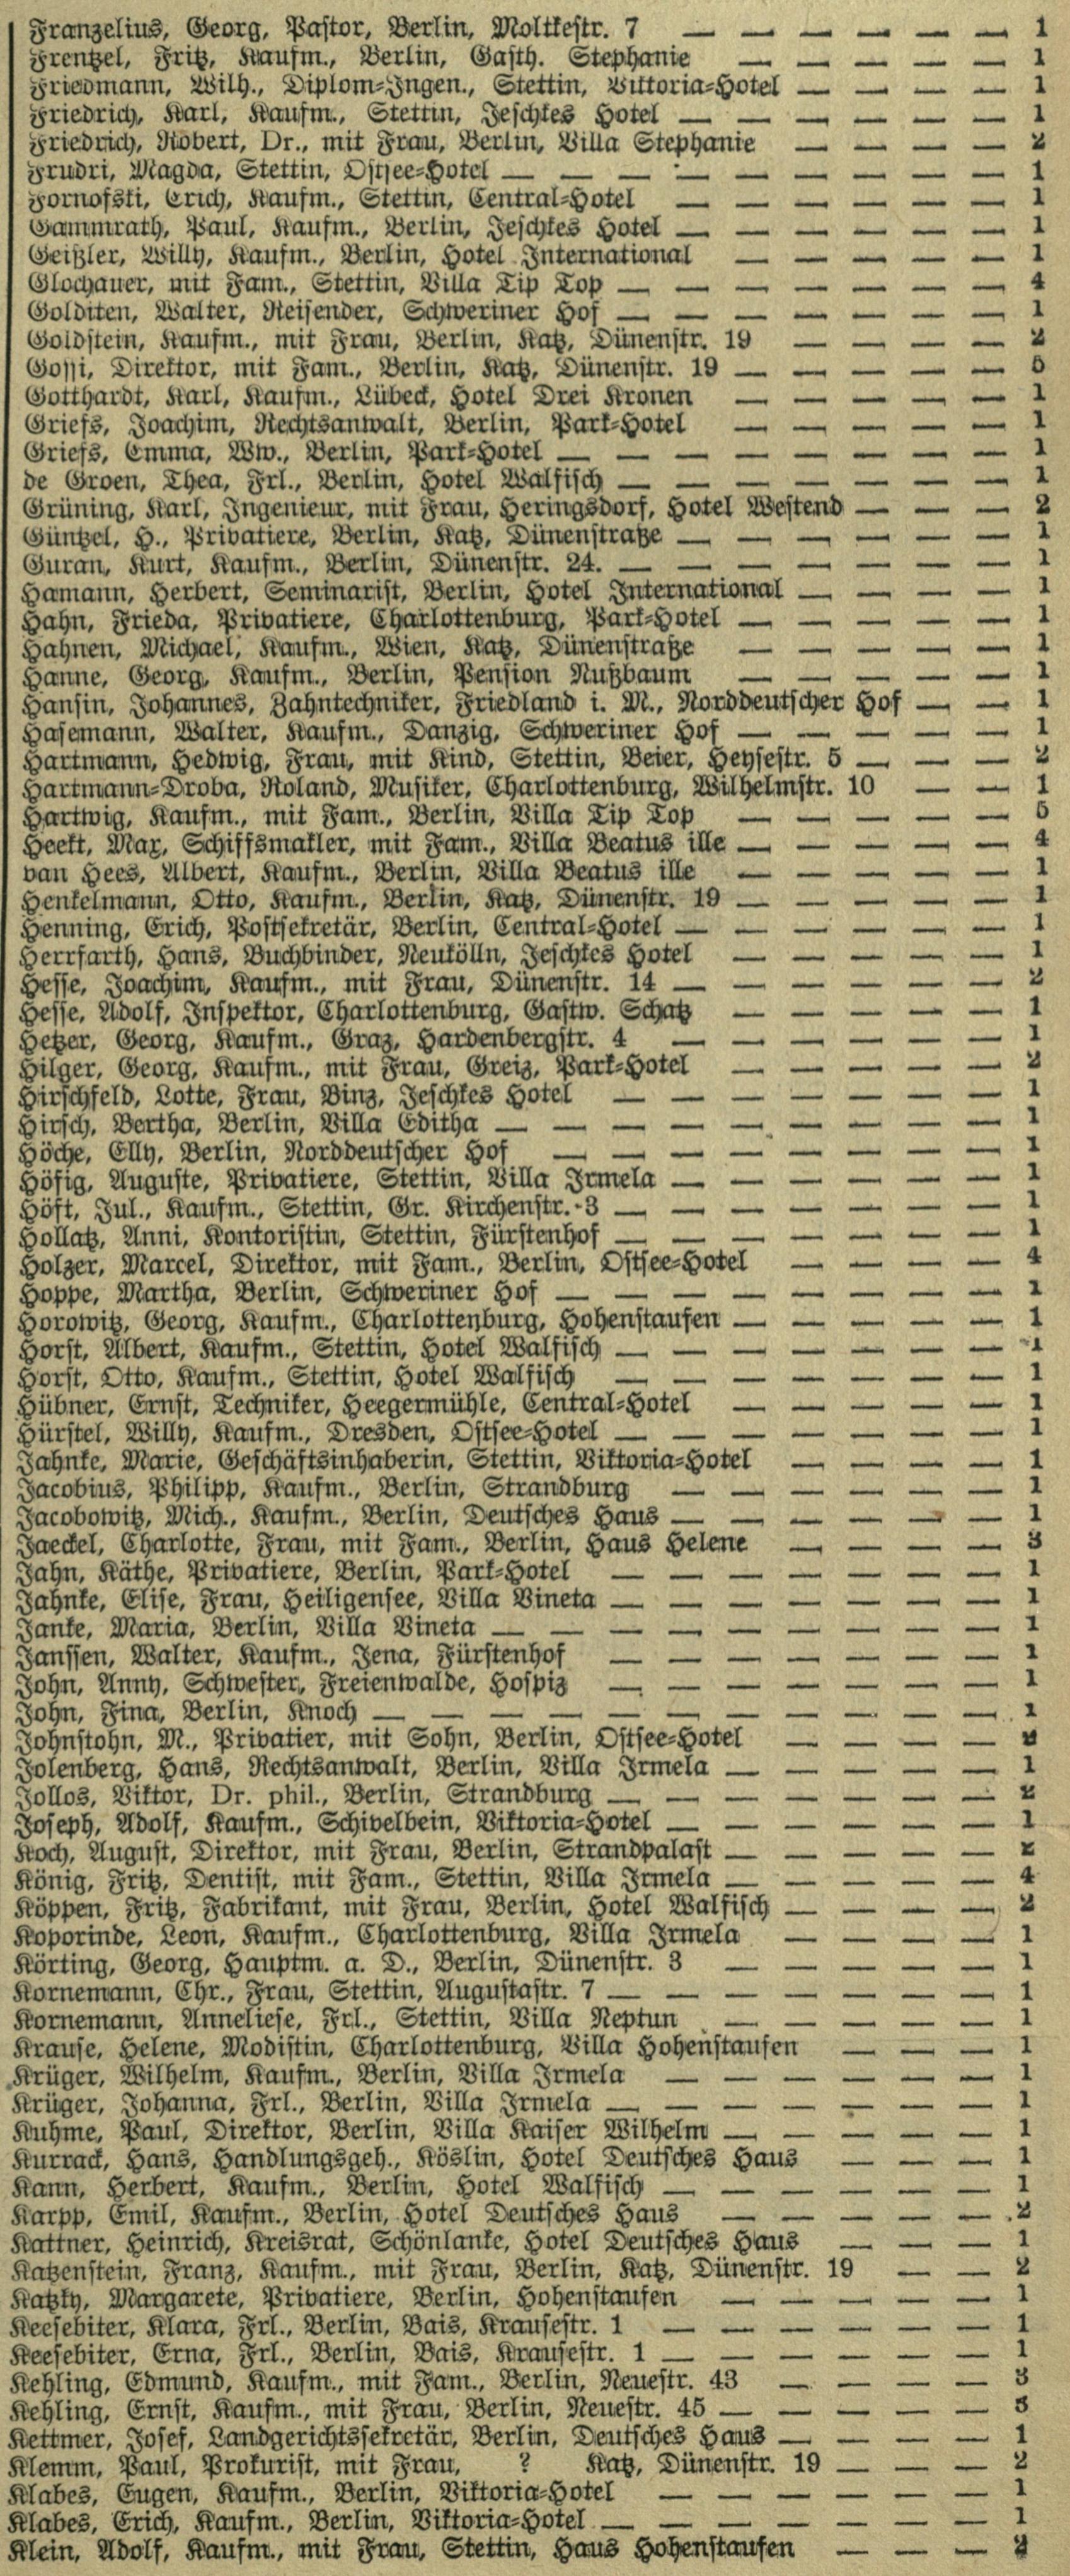Franzelius, Georg, Pastor, Berlin, Molktestr. 7 | 1
Frentzel, Fritz, Kaufm., Berlin, Gasth. Stephanie | 1
Friedmann, Wilh., Diplom=Ingen., Stettin, Viktoria=Hotel | 1
Friedrich, Karl, Kaufm., Stettin, Jeschkes Hotel | 1
Friedrich, Robert, Dr., mit Frau, Berlin, Villa Stephanie | 2
Frudri, Magda, Stettin, Ostsee=Hotel | 1
Fornofski, Erich, Kaufm., Stettin, Central=Hotel | 1
Gammrath, Paul, Kaufm., Berlin, Jeschkes Hotel | 1
Geißler, Willy, Kaufm., Berlin, Hotel International | 1
Glochauer, mit Fam., Stettin, Villa Tip Top | 4
Golditen, Walter, Reisender, Schweriner Hof | 1
Goldstein, Kaufm., mit Frau, Berlin, Katz, Dünenstr. 19 | 2
Gossi, Direktor, mit Fam., Berlin, Katz, Dünenstr. 19 | 5
Gotthardt, Karl, Kaufm., Lübeck, Hotel Drei Kronen | 1
Griefs, Joachim, Rechtsanwalt, Berlin, Park=Hotel | 1
Griefs, Emma, Ww., Berlin, Park=Hotel | 1
de Groen, Thea, Frl., Berlin, Hotel Walfisch | 1
Grüning, Karl, Ingenieur, mit Frau, Heringsdorf, Hotel Westend | 2
Güntzel, H., Privatiere, Berlin, Katz, Dünenstraße | 1
Guran, Kurt, Kaufm., Berlin, Dünenstr. 24 | 1
Hamann, Herbert, Seminarist, Berlin, Hotel International | 1
Hahn, Frieda, Privatiere, Charlottenburg, Park=Hotel | 1
Hahnen, Michael, Kaufm., Wien, Katz, Dünenstraße | 1
Hanne, Georg, Kaufm., Berlin, Pension Nußbaum | 1
Hansin, Johannes, Zahntechniker, Friedland i. M., Norddeutscher Hof | 1
Hasemann, Walter, Kaufm., Danzig, Schweriner Hof | 1
Hartmann, Hedwig, Frau, mit Kind, Stettin, Beier, Heysestr. 5 | 2
Hartmann=Droba, Roland, Musiker, Charlottenburg, Wilhelmstr. 10 | 1
Hartwig, Kaufm., mit Fam., Berlin, Villa Tip Top | 5
Heekt, Max, Schiffsmakler, mit Fam., Villa Beatus ille | 4
van Hees, Albert, Kaufm., Berlin, Villa Beatus ille | 1
Henkelmann, Otto, Kaufm., Berlin, Katz, Dünenstr. 19 | 1
Henning, Erich, Postsekretär, Berlin, Central=Hotel | 1
Herrfarth, Hans, Buchbinder, Neukölln, Jeschkes Hotel | 1
Hesse, Joachim, Kaufm., mit Frau, Dünenstr. 14 | 2
Hesse, Adolf, Inspektor, Charlottenburg, Gastw. Schatz | 1
Hetzer, Georg, Kaufm., Graz, Hardenbergstr. 4 | 1
Hilger, Georg, Kaufm., mit Frau, Greiz, Park=Hotel | 2
Hirschfeld, Lotte, Frau, Binz, Jeschkes Hotel | 1
Hirsch, Bertha, Berlin, Villa Editha | 1
Höche, Elly, Berlin, Norddeutscher Hof | 1
Höfig, Auguste, Privatiere, Stettin, Villa Irmela | 1
Höst, Jul., Kaufm., Stettin, Gr. Kirchenstr. 3 | 1
Hollatz, Anni, Kontoristin, Stettin, Fürstenhof | 1
Holzer, Marcel, Direktor, mit Fam., Berlin, Ostsee=Hotel | 4
Hoppe, Martha, Berlin, Schweriner Hof | 1
Horowitz, Georg, Kaufm., Charlottenburg, Hohenstaufen | 1
Horst, Albert, Kaufm., Stettin, Hotel Walfisch | 1
Horst, Otto, Kaufm., Stettin, Hotel Walfisch | 1
Hübner, Ernst, Techniker, Heegermühle, Central=Hotel | 1
Hürstel, Willy, Kaufm., Dresden, Ostsee=Hotel | 1
Jahnke, Marie, Geschäftsinhaberin, Stettin, Viktoria=Hotel | 1
Jacobius, Philipp, Kaufm., Berlin, Strandburg | 1
Jacobowitz, Mich., Kaufm., Berlin, Deutsches Haus | 1
Jaeckel, Charlotte, Frau, mit Fam., Berlin, Haus Helene | 3
Jahn, Käthe, Privatiere, Berlin, Park=Hotel | 1
Jahnke, Elise, Frau, Heiligensee, Villa Vineta | 1
Janke, Maria, Berlin, Villa Vineta | 1
Janssen, Walter, Kaufm., Jena, Fürstenhof | 1
John, Anny, Schwester, Freienwalde, Hospiz | 1
John, Fina, Berlin, Knoch | 1
Johnstohn, M., Privatier, mit Sohn, Berlin, Ostsee=Hotel | 2
Jolenberg, Hans, Rechtsanwalt, Berlin, Villa Irmela | 1
Jollos, Viktor, Dr. phil., Berlin, Strandburg | 2
Joseph, Adolf, Kaufm., Schivelbein, Viktoria=Hotel | 1
Koch, August, Direktor, mit Frau, Berlin, Strandpalast | 2
König, Fritz, Dentist, mit Fam., Stettin, Villa Irmela | 4
Köppen, Fritz, Fabrikant, mit Frau, Berlin, Hotel Walfisch | 2
Koporinde, Leon, Kaufm., Charlottenburg, Villa Irmela | 1
Körting, Georg, Hauptm. a. D., Berlin, Dünenstr. 3 | 1
Kornemann, Chr., Frau, Stettin, Augustastr. 7 | 1
Kornemann, Anneliese, Frl., Stettin, Villa Neptun | 1
Krause, Helene, Modistin, Charlottenburg, Villa Hohenstaufen | 1
Krüger, Wilhelm, Kaufm., Berlin, Villa Irmela | 1
Krüger, Johanna, Frl., Berlin, Villa Irmela | 1
Kuhme, Paul, Direktor, Berlin, Villa Kaiser Wilhelm | 1
Kurrack, Hans, Handlungsgeh., Köslin, Hotel Deutsches Haus | 1
Kann, Herbert, Kaufm., Berlin, Hotel Walfisch | 1
Karpp, Emil, Kaufm., Berlin, Hotel Deutsches Haus | 2
Kattner, Heinrich, Kreisrat, Schönlanke, Hotel Deutsches Haus | 1
Katzestein, Franz, Kaufm., mit Frau, Berlin, Katz, Dünenstr. 19 | 2
Katzky, Margarete, Privatiere, Berlin, Hohenstaufen | 1
Keesebiter, Klara, Frl., Berlin, Bais, Krausestr. 1 | 1
Keesebiter, Erna, Frl., Berlin, Bais, Krausestr. 1 | 1
Kehling, Edmund, Kaufm., mit Fam., Berlin, Neuestr. 43 | 3
Kehling, Ernst, Kaufm., mit Frau, Berlin, Neuestr. 45 | 5
Kettmer, Josef, Landgerichtssekretär, Berlin, Deutsches Haus | 1
Klemm, Paul, Prokurist, mit Frau, ? Katz, Dünenstr. 19 | 2
Klabes, Eugen, Kaufm., Berlin, Viktoria=Hotel | 1
Klabes, Erich, Kaufm., Berlin, Viktoria=Hotel | 1
Klein, Adolf, Kaufm., mit Frau, Stettin, Haus Hohenstaufen | 2
